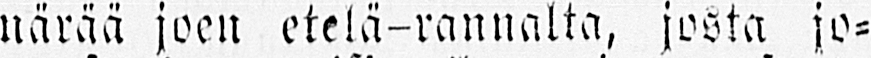närää joen etelä-rannalta, josta jo-
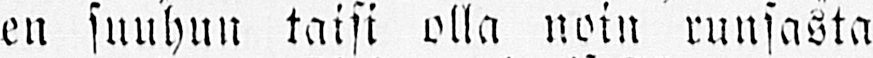en suuhun taisi olla noin runsasta
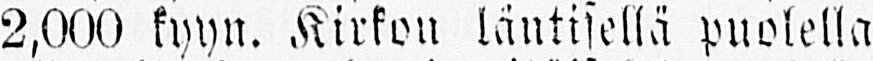2,000 kyyn. Kirkon läntisellä puolella
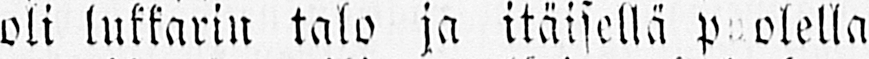oli lukkarin talo ja itäisellä p uolella
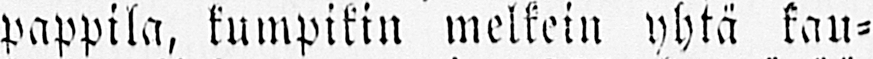pappila, kumpikin melkein yhtä kau-
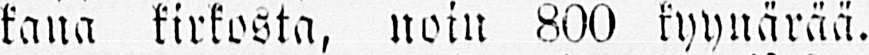kana kirkosta, noin 800 kyynärää.
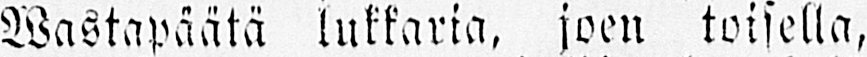wastapäätä lukkaria, joen toisella,
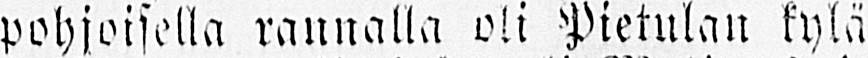pohjoisella rannalla oli Pietulan kylä
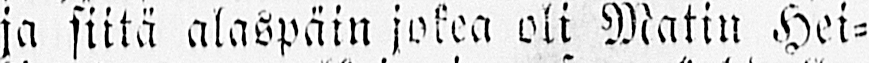ja siitä alaspäin jokea oli Matin Hei-
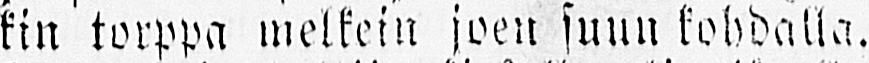kin torppa melkein joen suun kohdalla.
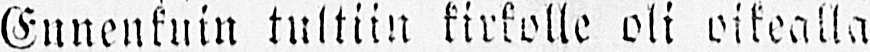Ennenkuin tultiin kirkolle oli oikealla
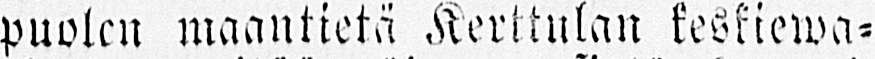puolen maantietä Kerttulan keskiewa-
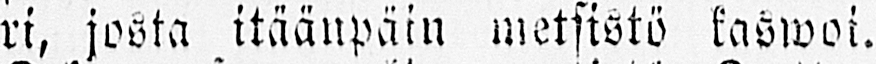ri, josta itäänpäin metsistö kaswoi.
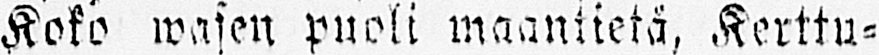Koko wasen puoli maantietä, Kerttu-
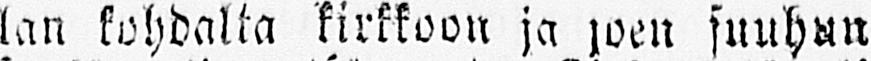lan kohdalta kirkkoon ja joen suuhun
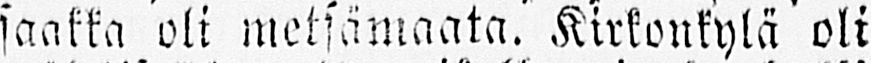saakka oli metsämaata. Kirkonkylä oli
